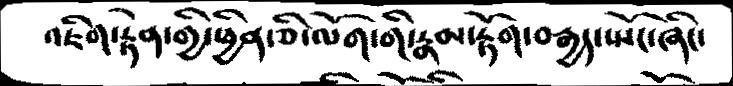འཇིག་རྟེན་གྱི་ཕྱིན་ཅི་ལོག་གི་རྣམ་རྟོག་བརྒྱད་སྤོང་ཞིང་
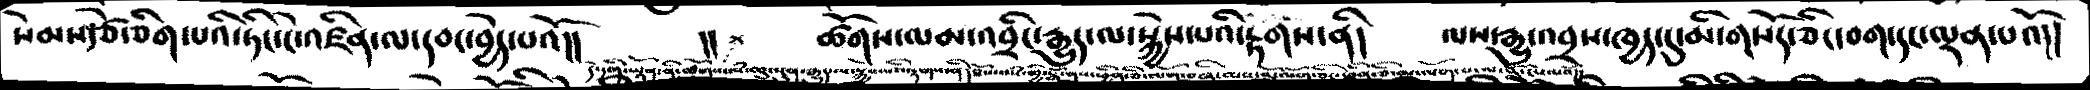སེམས་རྩེ་ཅིག་པའི་ཏིང་ངེ་འཛིན་ལ་དབང་བྱེད་པའོ།།     །།   ཚོགས་ལམ་འབྲིང་རྒྱུད་ལ་སྐྱེས་པའི་རྟགས་ནི།   ལས་རྒྱུ་འབྲས་ཁྱད་དུ་མི་གསོད་ཅིང་བག་དང་ལྡན་པའོ།།
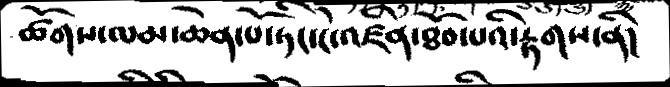ཚོགསལམ་ཆེན་པོ་ཏིང་ངེ་འཛིན་ཐོབ་པའི་རྟགས་ནི།
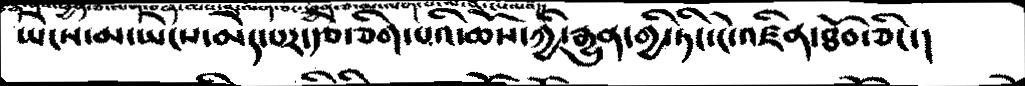ཡེངས་མ་ཡེངས་མེད་པར་རྩེ་ཅིག་པའི་ཆོས་ཀྱི་རྒྱུན་གྱི་ཏིང་ངེ་འཛིན་ཐོབ་ཅིང་།
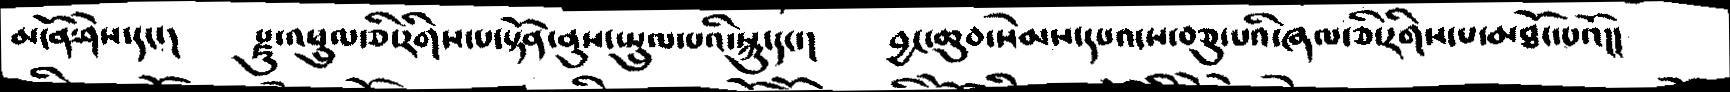མངོན་ཤེས་དང་།   རྫུ་འཕྲུལ་ཅི་རིགས་པ་སྟོན་ནུས་སྤྲུལ་པའི་སྐུ་དང་།   བྱང་ཆུབ་སེམས་དཔའ་ས་བཅུ་པའི་ཞལ་ཅི་རིགས་པ་མཐོང་པའོ།།
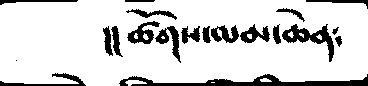།།ཚོགས་ལམ་ཆེན༴
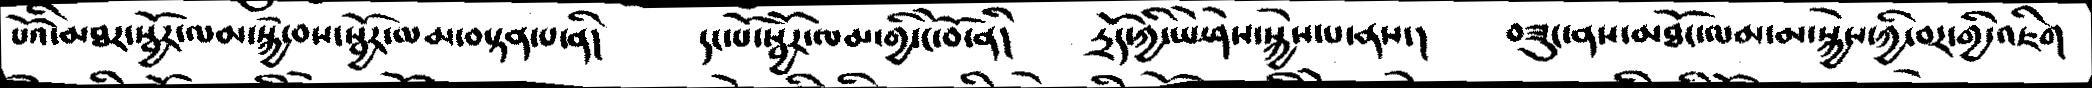པོའི་མཐར་སྦྱོར་ལམ་སྐྱེ་བས་སྦྱོར་ལམ་བསྟན་པ་ནི།   དང་པོ་སྦྱོར་ལམ་གྱི་ངོ་བོ་ནི།  དྲོད་ཀྱི་ཡེ་ཤེས་སྐྱེས་པ་ནས་།  བཟུང་ནས་མཐོང་ལམ་མ་སྐྱེས་ཀྱི་བར་གྱི་འཇིག་
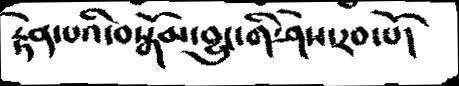རྟེན་པའི་བསྒོམ་བྱུང་གི་ཤེས་རབ་པོ།
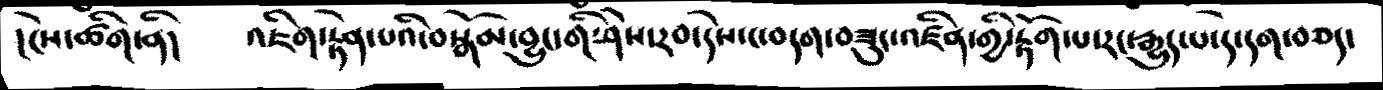།ངེས་ཚིག་ནི།   འཇིག་རྟེན་པའི་བསྒོམ་བྱུང་གི་ཤེས་རབ་དེས་ང་བདག་བཟུང་འཛིན་གྱི་རྟོག་པ་རང་རྒྱུད་པ་དེ་དག་བཅད་
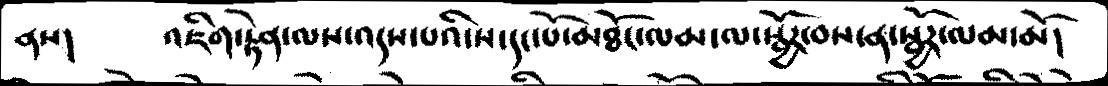ནས།   འཇིག་རྟེན་ལས་འདས་པའི་ས་དང་པོ་མཐོང་ལམ་ལ་སྦྱོར་བས་ན་སྦྱོར་ལམ་མོ།
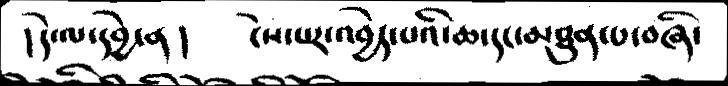།དེ་ལ་དབྱེ་ན།   ངེས་པར་འབྱེད་པའི་ཆ་དང་མཐུན་པ་བཞི་
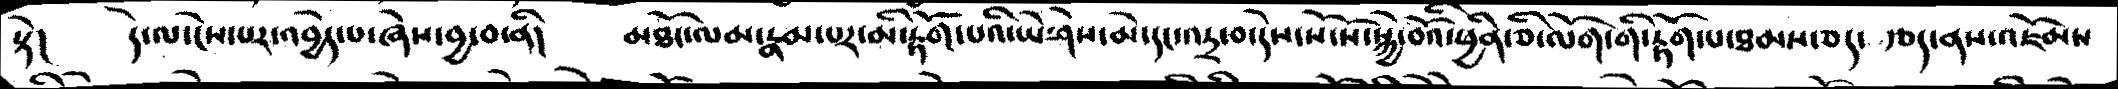སྟེ།   དེ་ལ་ངེས་པར་འབྱེད་པ་ཞེས་བྱ་བ་ནི།   མཐོང་ལམ་རྣམ་པར་མི་རྟོག་པའི་ཡེ་ཤེས་མེ་དང་འདྲ་བ་དེས་སོ་སོ་སྐྱེ་བོའི་ཕྱིན་ཅི་ལོག་གི་རྟོག་པ་ཐམས་ཅད་ རྩད་ནས་འཇོམས
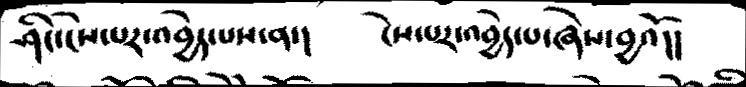ཤིང་ངེས་པར་འབྱེད་པས་ན་།   ངེས་པར་འབྱེད་པ་ཞེས་བྱའོ།།
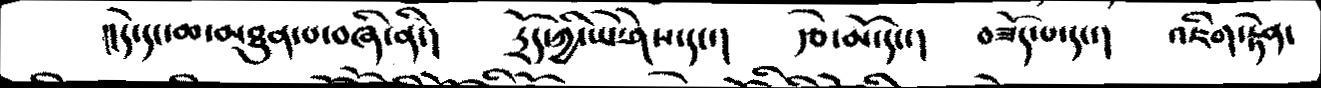།།དེ་དང་ཆ་མཐུན་པ་བཞི་ནི་།   དྲོད་ཀྱི་ཡེ་ཤེས་དང་།   རྩེ་མོ་དང་།   བཟོད་པ་དང་།   འཇིག་རྟེན་
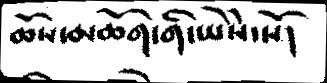ཆོས་མཆོག་གི་ཡཻས་སོ།
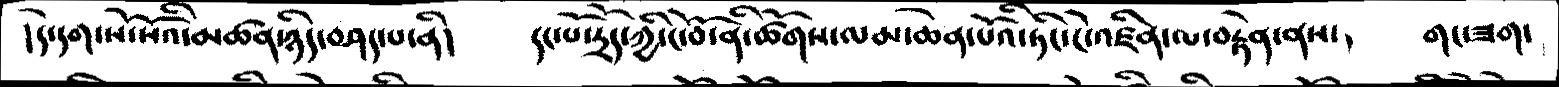།དེ་དག་སོ་སོའི་མཚན་ཉིད་བཤད་པ་ནི།   དང་པོ་དྲོད་ཀྱི་ངོ་བོ་ནི་ཚོགས་ལམ་ཆེན་པོའི་ཏིང་ངེ་འཛིན་ལ་བརྟེན་ནས་  གང་ཟག་
